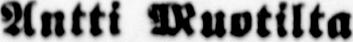Antti Muotilta
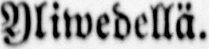Yliwedellä.
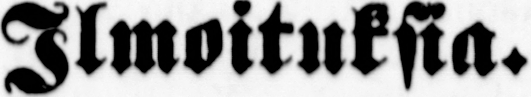Ilmoituksia.
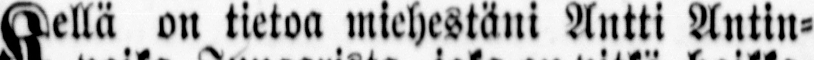Kellä on tietoa miehestäni Antti Antin-
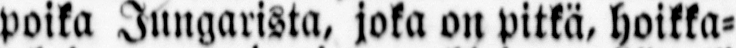poika Jungarista, joka on pitkä, hoikka-
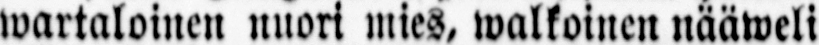wartaloinen nuori mies, walkoinen nääweli
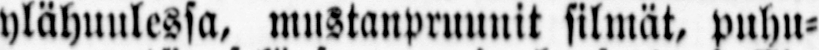ylähuulessa, mustanpruunit silmät, puhu-
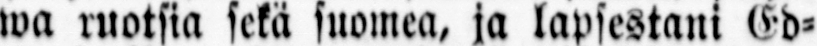wa ruotsia sekä suomea, ja lapsestani Ed-
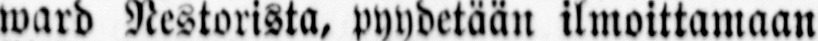ward Nestorista, pyydetään ilmoittamaan
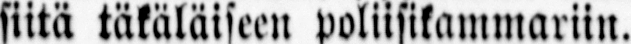siitä täkäläiseen poliisikammariin.
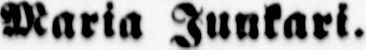Maria Junkari.
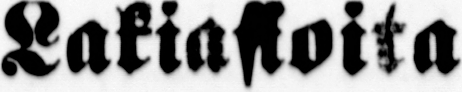Lakiasioita
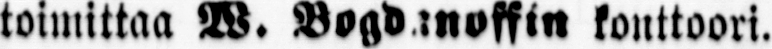toimittaa W. Bogdtnoffin konttoori.
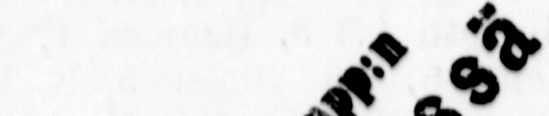A. L. Odén ja Kumpp:n
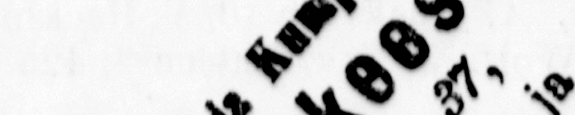Rtäätäliliikkeessä
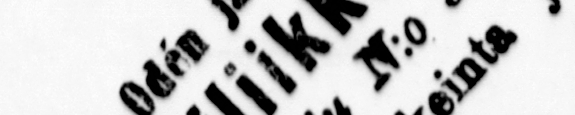Katarinankatu N:o 37,
